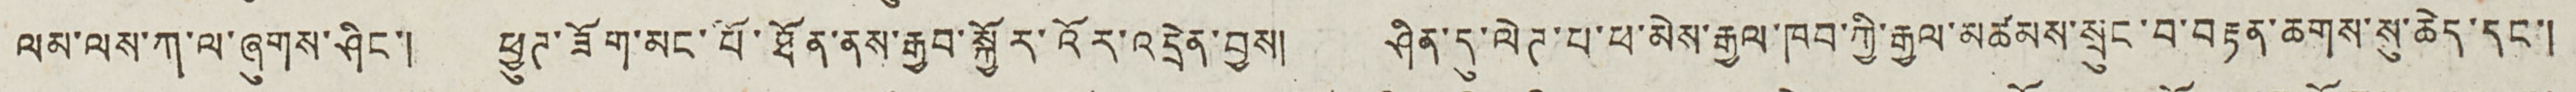ལམ་ལས་ཀ་ལ་ཞུགས་ཤིང་། ཕྱུཊ་ཟོག་མང་པོ་ཐོན་ནས་རྒྱབ་སྐྱོར་འོར་འདྲེན་བྱས། ཤིན་དུ་ལེཊ་པ་ཕ་མེས་རྒྱལ་ཁབ་ཀྱི་རྒྱལ་མཚམས་སྲུང་བ་བརྟན་ཆགས་སུ་ཆེད་དང་།
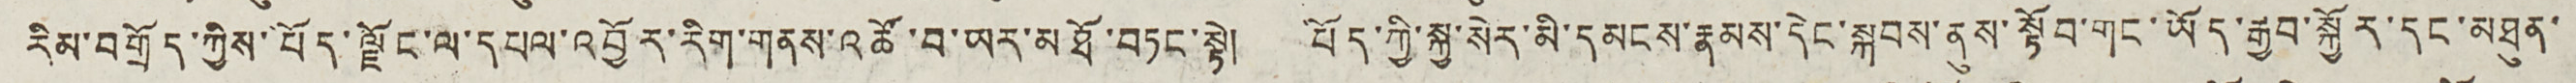རིམ་བགྲོད་ཀྱིས་བོད་ལྗོང་ལ་དཔལ་འབྱོར་རིག་གནས་འཚོ་བ་ཡར་མཐོ་བཏང་སྟེ། བོད་ཀྱི་སྐྱ་སེར་མི་དམངས་རྣམས་དེང་སྐབས་ནུས་སྟོབ་གང་ཡོད་རྒྱབ་སྐྱོར་དང་མཐུན་
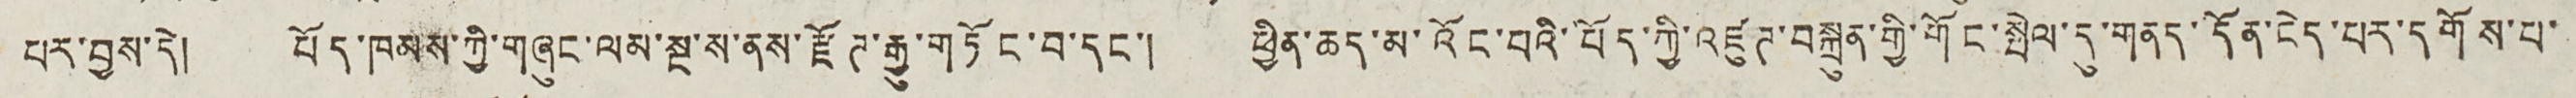པར་བྱས་དེ། བོད་ཁམས་ཀྱི་གཞུང་ལམ་སྔ་ས་ནས་རྫོཊ་རྒྱུ་གཏོང་བ་དང་། ཕྱིན་ཆད་མ་འོང་བའི་བོད་ཀྱི་འཛུཊ་བསྐྲུན་གྱི་གོང་སྤེལ་དུ་གནད་དོན་ངེད་པར་དགོས་པ་
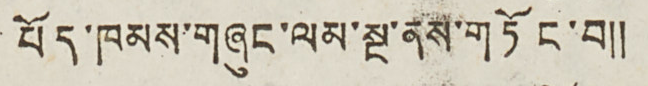བོད་ཁམས་གཞུང་ལམ་སྔ་ནས་གཏོང་བ༎
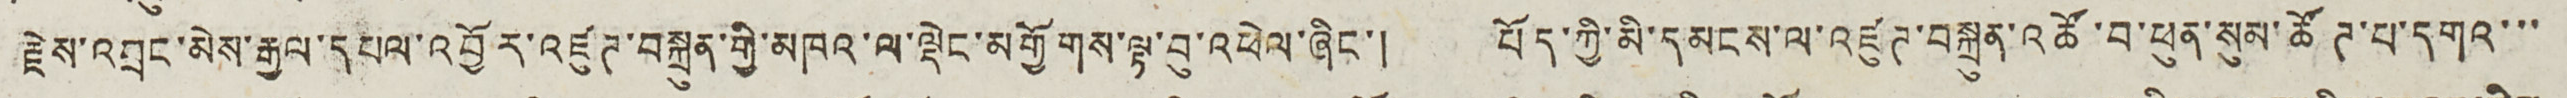རྗེས་འབྲང་མེས་རྒྱལ་དཔལ་འབྱོར་འཛུཊ་བསྐྲུན་གྱི་མཁའ་ལ་ལྡེང་མགྱོགས་ལྟ་བུ་འཕེལ་ཞིང་། བོད་ཀྱི་མི་དམངས་ལ་འཛུཊ་བསྐྲུན་འཚོ་བ་ཕུན་སུམ་ཚོཊ་པ་དགའ་་་
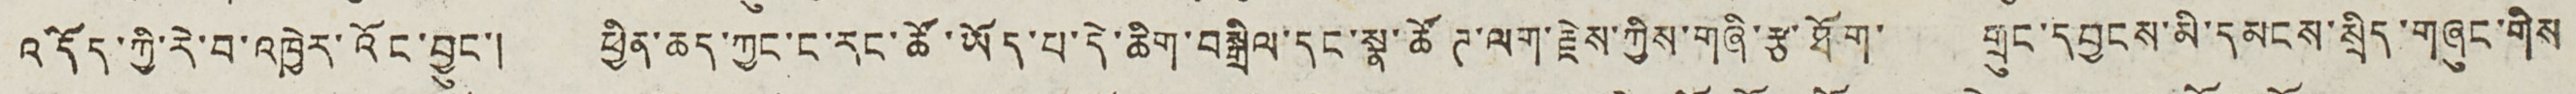འདོད་ཀྱི་རེ་བ་འཁྱེར་འོང་བྱུང་། ཕྱིན་ཆད་ཀྱང་ང་རང་ཚོ་ཡོད་པ་དེ་ཆིག་བསྒྲིལ་དང་སྣ་ཚོཊ་ལག་རྗེས་ཀྱིས་གཞི་རྩ་ཐོག་ གྲུང་དབྱངས་མི་དམངས་སྲིད་གཞུང་གིས
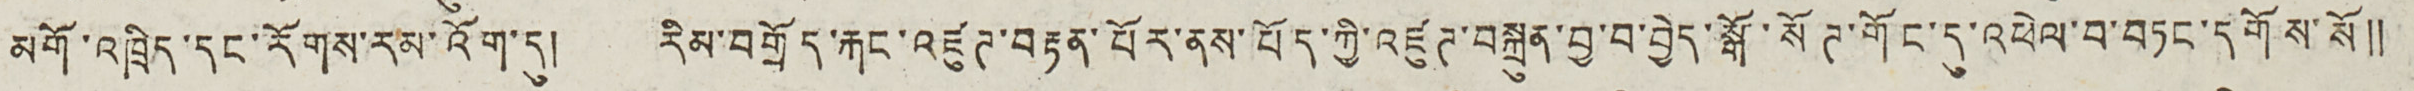མགོ་འཁྲིད་དང་རོགས་རམ་འོག་དུ། རིམ་བགྲོད་རྐང་འཛུཊ་བརྟན་པོར་ནས་བོད་ཀྱི་འཛུཊ་བསྐྲུན་བྱ་བ་བྱེད་སྒོ་སོཊ་གོང་དུ་འཕེལ་བ་བཏང་དགོས་སོ༎
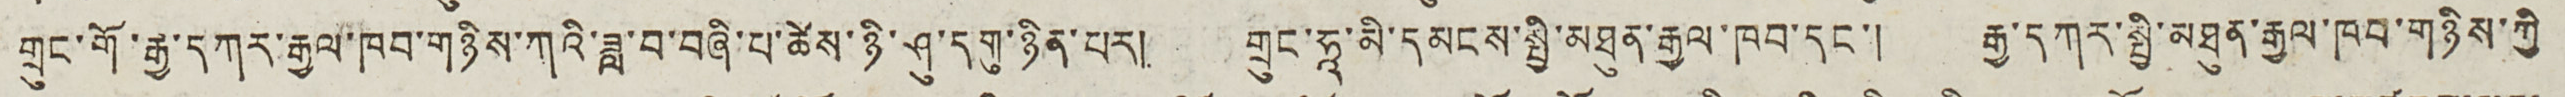གྲུང་གོ་རྒྱ་དཀར་རྒྱལ་ཁབ་གཉིས་ཀའི་ཟླ་བ་བཞི་པ་ཚེས་ཉི་ཤུ་དགུ་ཉིན་པར། གྲུང་ཧཱ་མི་དམངས་སྤྱི་མཐུན་རྒྱལ་ཁབ་དང་། རྒྱ་དཀར་སྤྱི་མཐུན་རྒྱལ་ཁབ་གཉིས་ཀྱི
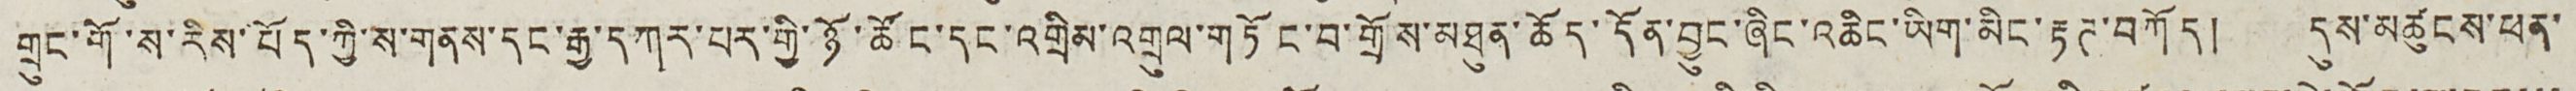གྲུང་གོ་ས་རིས་བོད་ཀྱི་ས་གནས་དང་རྒྱ་དཀར་པར་གྱི་ཉོ་ཚོང་དང་འགྲིམ་འགྲུལ་གཏོང་བ་གྲོས་མཐུན་ཆོད་དོན་བྱང་ཞིང་འཆིང་ཡིག་མིང་རྟཊ་བཀོད། དུས་མཚུངས་ཕན་
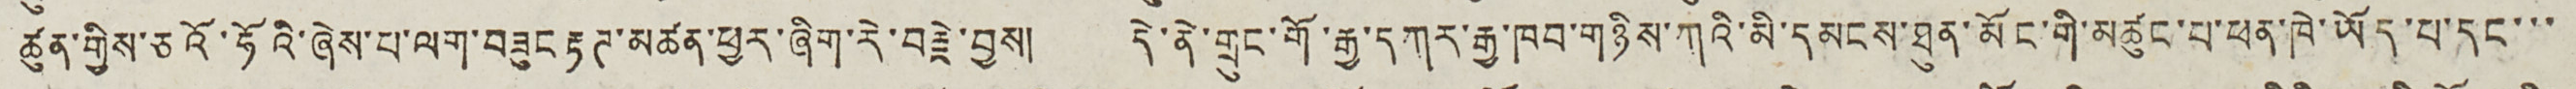ཚུན་གྱིས་ཅའོ་ཧོའི་ཞེས་པ་ལག་བཟུང རྟཊ་མཚན་ཕྱར་ཞིག་རེ་བརྗེ་བྱས། དེ་ནེ་གྲུང་གོ་རྒྱ་དཀར་རྒྱ་ཁབ་གཉིས་ཀའི་མི་དམངས་ཐུན་མོང་གི་མཚུང་པ་ཕན་ཁེ་ཡོད་པ་དང་་་
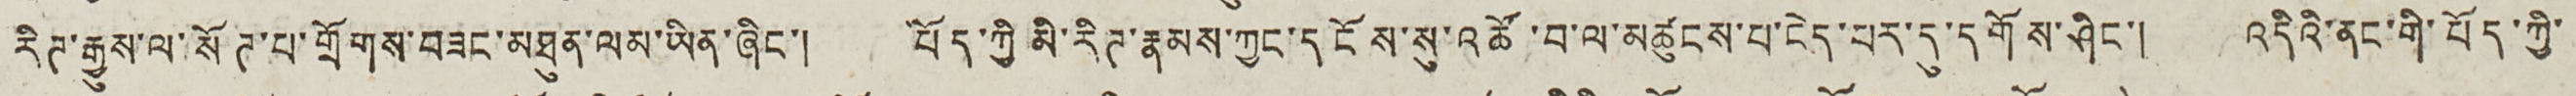རིཊ་རྒྱུས་ལ་སོཊ་པ་གྲོགས་བཟང་མཐུན་ལམ་ཡིན་ཞིང་། བོད་ཀྱི མི་རིཊ་རྣམས་ཀྱང་དངོས་སུ་འཚོ་བ་ལ་མཚུངས་པ་ངེད་པར་དུ་དགོས་ཤིང་། འདིའི་ནང་གི་བོད་ཀྱི་
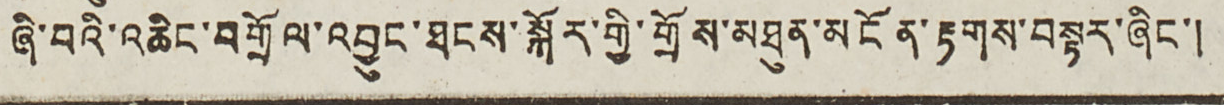ཞི་བའི་འཆིང་བགྲོལ་འབྱུང་ཐངས་སྐོར་གྱི་གྲོས་མཐུན་མངོན་རྟགས་བསྟར་ཞིང་།
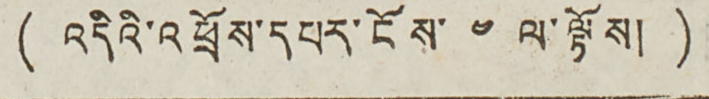( འདིའི་འཕྲོས་དཔར་ངོས་ ༤ ལ་ལྟོས། )
